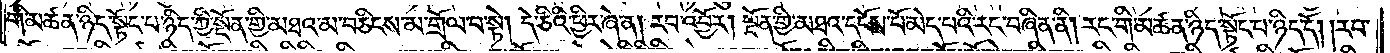གི་མཚན་ཉིད་སྟོང་པ་ཉིད་ཀྱི་སྔོན་གྱི་མཐའ་མ་བཅིངས་མ་གྲོལ་བ་སྟེ། དེ་ཅིའི་ཕྱིར་ཞེ་ན། རབ་འབྱོར། སྔོན་གྱི་མཐའ་དངོས་པོ་མེད་པའི་རང་བཞིན་ནི། རང་གི་མཚན་ཉིད་སྟོང་པ་ཉིད་དོ། །རབ་
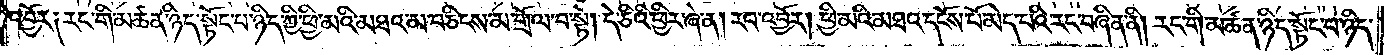འབྱོར༑ རང་གི་མཚན་ཉིད་སྟོང་པ་ཉིད་ཀྱི་ཕྱི་མའི་མཐའ་མ་བཅིངས་མ་གྲོལ་བ་སྟེ། དེ་ཅིའི་ཕྱིར་ཞེ་ན། རབ་འབྱོར། ཕྱི་མའི་མཐའ་དངོས་པོ་མེད་པའི་རང་བཞིན་ནི། རང་གི་མཚན་ཉིད་སྟོང་པ་ཉིད་
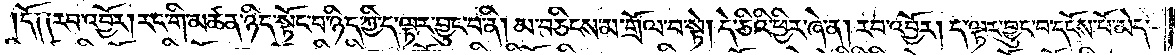དོ༑ ༑རབ་འབྱོར། རང་གི་མཚན་ཉིད་སྟོང་པ་ཉིད་ཀྱི་ད་ལྟར་བྱུང་བ་ནི། མ་བཅིངས་མ་གྲོལ་བ་སྟེ། དེ་ཅིའི་ཕྱིར་ཞེ་ན། རབ་འབྱོར། ད་ལྟར་བྱུང་བ་དངོས་པོ་མེད་
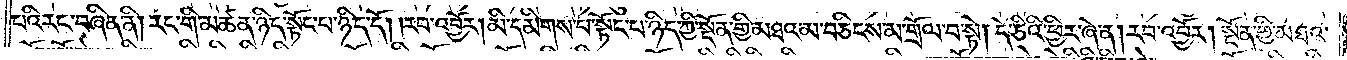པའི་རང་བཞིན་ནི། རང་གི་མཚན་ཉིད་སྟོང་པ་ཉིད་དོ། །རབ་འབྱོར། མི་དམིགས་པ་སྟོང་པ་ཉིད་ཀྱི་སྔོན་གྱི་མཐའ་མ་བཅིངས་མ་གྲོལ་བ་སྟེ། དེ་ཅིའི་ཕྱིར་ཞེ་ན། རབ་འབྱོར། སྔོན་གྱི་མཐའ་
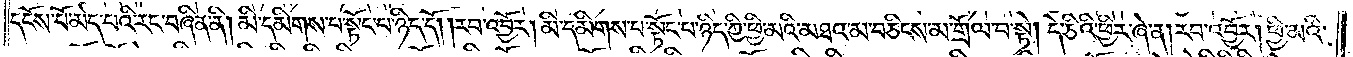དངོས་པོ་མེད་པའི་རང་བཞིན་ནི། མི་དམིགས་པ་སྟོང་པ་ཉིད་དོ། །རབ་འབྱོར། མི་དམིགས་པ་སྟོང་པ་ཉིད་ཀྱི་ཕྱི་མའི་མཐའ་མ་བཅིངས་མ་གྲོལ་བ་སྟེ། དེ་ཅིའི་ཕྱིར་ཞེ་ན། རབ་འབྱོར། ཕྱི་མའི་
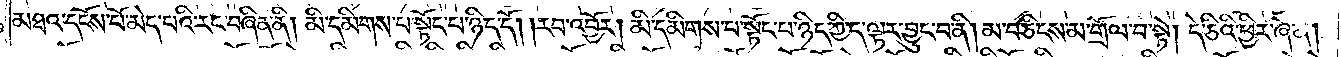མཐའ་དངོས་པོ་མེད་པའི་རང་བཞིན་ནི། མི་དམིགས་པ་སྟོང་པ་ཉིད་དོ། །རབ་འབྱོར། མི་དམིགས་པ་སྟོང་པ་ཉིད་ཀྱི་ད་ལྟར་བྱུང་བ་ནི། མ་བཅིངས་མ་གྲོལ་བ་སྟེ། དེ་ཅིའི་ཕྱིར་ཞེ་ན།
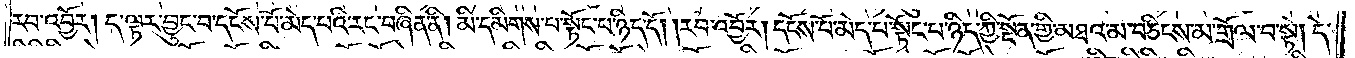རབ་འབྱོར། ད་ལྟར་བྱུང་བ་དངོས་པོ་མེད་པའི་རང་བཞིན་ནི། མི་དམིགས་པ་སྟོང་པ་ཉིད་དོ། །རབ་འབྱོར། དངོས་པོ་མེད་པ་སྟོང་པ་ཉིད་ཀྱི་སྔོན་གྱི་མཐའ་མ་བཅིངས་མ་གྲོལ་བ་སྟེ། དེ་
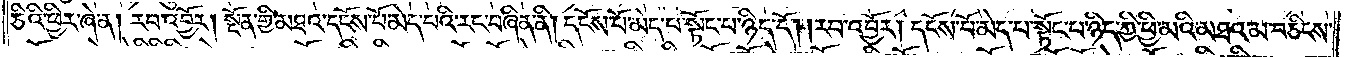ཅིའི་ཕྱིར་ཞེ་ན། རབ་འབྱོར། སྔོན་གྱི་མཐའ་དངོས་པོ་མེད་པའི་རང་བཞིན་ནི། དངོས་པོ་མེད་པ་སྟོང་པ་ཉིད་དོ། །རབ་འབྱོར། དངོས་པོ་མེད་པ་སྟོང་པ་ཉིད་ཀྱི་ཕྱི་མའི་མཐའ་མ་བཅིངས་
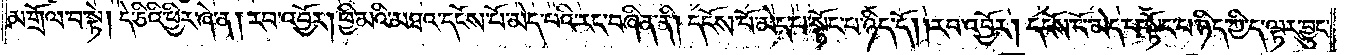མ་གྲོལ་བ་སྟེ། དེ་ཅིའི་ཕྱིར་ཞེ་ན། རབ་འབྱོར། ཕྱི་མའི་མཐའ་དངོས་པོ་མེད་པའི་རང་བཞིན་ནི། དངོས་པོ་མེད་པ་སྟོང་པ་ཉིད་དོ། །རབ་འབྱོར། དངོས་པོ་མེད་པ་སྟོང་པ་ཉིད་ཀྱི་ད་ལྟར་བྱུང་
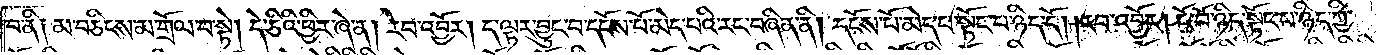བ་ནི༑ མ་བཅིངས་མ་གྲོལ་བ་སྟེ། དེ་ཅིའི་ཕྱིར་ཞེ་ན། རབ་འབྱོར། ད་ལྟར་བྱུང་བ་དངོས་པོ་མེད་པའི་རང་བཞིན་ནི། དངོས་པོ་མེད་པ་སྟོང་པ་ཉིད་དོ། །རབ་འབྱོར། ངོ་བོ་ཉིད་སྟོང་པ་ཉིད་ཀྱི་
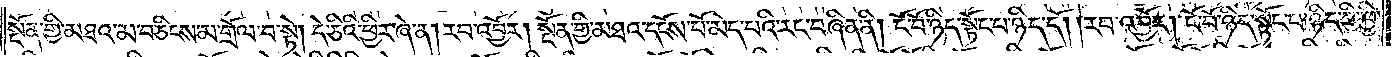སྔོན་གྱི་མཐའ་མ་བཅིངས་མ་གྲོལ་བ་སྟེ། དེ་ཅིའི་ཕྱིར་ཞེ་ན། རབ་འབྱོར། སྔོན་གྱི་མཐའ་དངོས་པོ་མེད་པའི་རང་བཞིན་ནི། ངོ་བོ་ཉིད་སྟོང་པ་ཉིད་དོ། །རབ་འབྱོར། ངོ་བོ་ཉིད་སྟོང་པ་ཉིད་ཀྱི་ཕྱི་
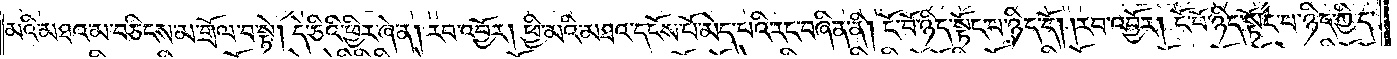མའི་མཐའ་མ་བཅིངས་མ་གྲོལ་བ་སྟེ། དེ་ཅིའི་ཕྱིར་ཞེ་ན། རབ་འབྱོར། ཕྱི་མའི་མཐའ་དངོས་པོ་མེད་པའི་རང་བཞིན་ནི། ངོ་བོ་ཉིད་སྟོང་པ་ཉིད་དོ། །རབ་འབྱོར། ངོ་བོ་ཉིད་སྟོང་པ་ཉིད་ཀྱི་ད་
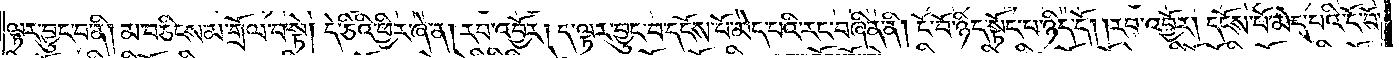ལྟར་བྱུང་བ་ནི། མ་བཅིངས་མ་གྲོལ་བ་སྟེ། དེ་ཅིའི་ཕྱིར་ཞེ་ན། རབ་འབྱོར། ད་ལྟར་བྱུང་བ་དངོས་པོ་མེད་པའི་རང་བཞིན་ནི། ངོ་བོ་ཉིད་སྟོང་པ་ཉིད་དོ། །རབ་འབྱོར། དངོས་པོ་མེད་པའི་ངོ་བོ་
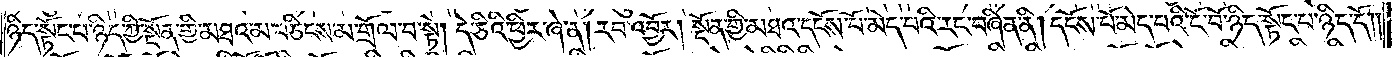ཉིད་སྟོང་པ་ཉིད་ཀྱི་སྔོན་གྱི་མཐའ་མ་བཅིངས་མ་གྲོལ་བ་སྟེ། དེ་ཅིའི་ཕྱིར་ཞེ་ན། རབ་འབྱོར། སྔོན་གྱི་མཐའ་དངོས་པོ་མེད་པའི་རང་བཞིན་ནི། དངོས་པོ་མེད་པའི་ངོ་བོ་ཉིད་སྟོང་པ་ཉིད་དོ། །
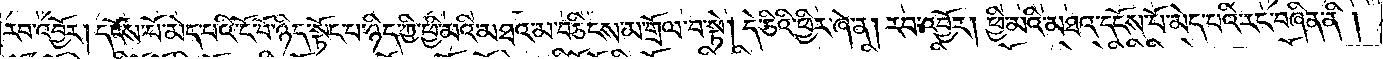རབ་འབྱོར། དངོས་པོ་མེད་པའི་ངོ་བོ་ཉིད་སྟོང་པ་ཉིད་ཀྱི་ཕྱི་མའི་མཐའ་མ་བཅིངས་མ་གྲོལ་བ་སྟེ། དེ་ཅིའི་ཕྱིར་ཞེ་ན། རབ་འབྱོར། ཕྱི་མའི་མཐའ་དངོས་པོ་མེད་པའི་རང་བཞིན་ནི།
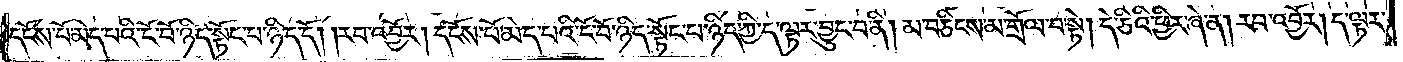དངོས་པོ་མེད་པའི་ངོ་བོ་ཉིད་སྟོང་པ་ཉིད་དོ། །རབ་འབྱོར། དངོས་པོ་མེད་པའི་ངོ་བོ་ཉིད་སྟོང་པ་ཉིད་ཀྱི་ད་ལྟར་བྱུང་བ་ནི། མ་བཅིངས་མ་གྲོལ་བ་སྟེ། དེ་ཅིའི་ཕྱིར་ཞེ་ན། རབ་འབྱོར། ད་ལྟར་
